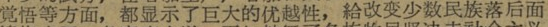覚悟等方面，都显示了巨大的优越性，給改变少数民族落后面
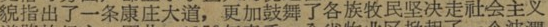貌指出了一条康庄大道，更加鼓舞了各族牧民坚决走社会主义
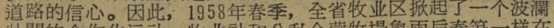道路的信心。因此，1958年春季，全省牧业区掀起了一个波瀾
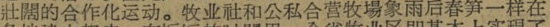壯闊的合作化运动。牧业社和公私合营牧場象雨后春笋一样在
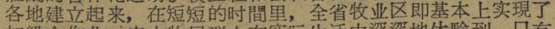各地建立起来，在短短的时間里，全省牧业区即基本上实現了
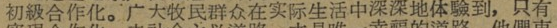初級合作化。广大牧民群众在实际生活中深深地体驗到，只有
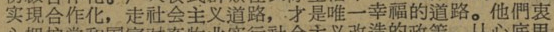实現合作化，走社会主义道路，才是唯一幸福的道路。他們衷
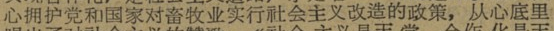心拥护党和国家对畜牧业实行社会主义改造的政策，从心底里
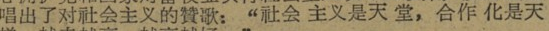唱出了对社会主义的贊歌：“社会 主义是天 堂，合作化是天
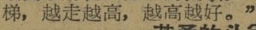梯，越走越高，越高越好。”
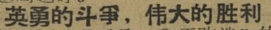英勇的斗爭，伟大的胜利
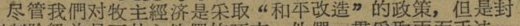尽管我們对牧主經济是采取“和平改造”的政策，但是封
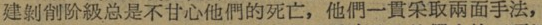建剝削阶級总是不甘心他們的死亡，他們一貫采取兩面手法，
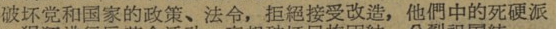破坏党和国家的政策、法令，拒絕接受改选，他們中的死硬派
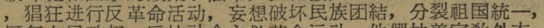，猖狂进行反革命活动，妄想破坏民族团結，分裂祖国統一，
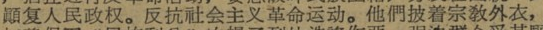顚复人民政权。反抗社会主义革命运动。他們披着宗敎外衣，
